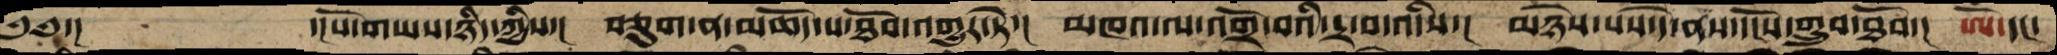༄༅་།             ་།པོ་གཡས་ཉིད་ཀྱིས་།   བཅུག་ན་མཆོད་པ་ཐོབ་འགྱུར་ཏེ་།  མཁའ་ལ་འགྲོ་བའི་དྲ་བ་འདིས་།  མཉེས་པས་དེ་ནས་དངོས་གྲུབ་ཐོབ་།  ཨོཾ་དང་
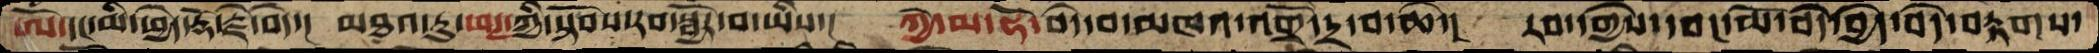ཨོཾ་དང་མི་ཕྱེད་རྡོ་རྗེ་བདེ་།  མཐའ་རུ་ཕཊ་ཀྱི་སྟོབས་རབ་སྦྱོར་བ་ཡིས་།  ཀྱེ་མ་ཧོ་བདེ་བ་མཁའ་འགྲོ་དྲ་བ་ཆེ་།  རབ་དགྱེས་དབང་མོ་བདེ་བྱེད་བདེ་བརྟགས་
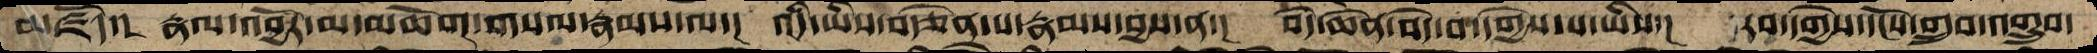མཛོད་།  རྣལ་འབྱོར་མ་མཆོག་གསལ་རྣམས་ལ་།  འདི་ཡིས་བརྩེན་པ་རྣམས་བྱས་ན་།  བདེ་ཆེན་བདེ་བ་དགྱེས་པ་ཡིས་།  རབ་དགྱེས་དངོས་གྲུབ་འགྲུབ་
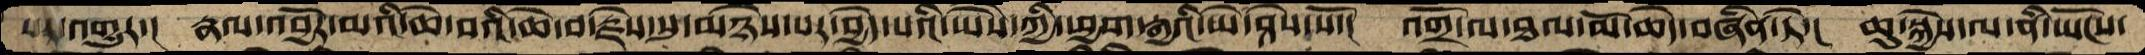པར་འགྱུར་།  རྣལ་འབྱོར་མའི་ཆེ་བའི་ཆེ་བ་རྗེས་སུ་མཉེས་པར་བྱེད་པའི་ཡཻས་ཀྱི་ཕྱག་རྒྱའི་ཡེ་ཤེས་སོ་།  འགྲོ་ལ་ཐལ་མོ་ཆེད་བཞིན་ཏེ་།  ཆུ་སྐྱེས་ལ་ནི་ཡོངས་
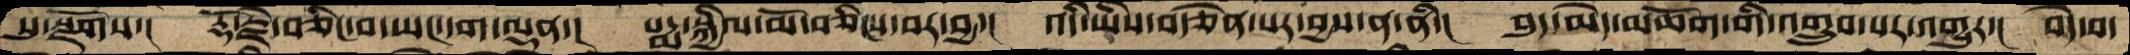སུ་སྫོགས་།  རྡོ་རྗེ་བཅིང་བ་ཡང་དག་ལྡན་།  པདྨ་སྐྱིལ་མོ་བཅིངས་བར་བྱ་།  འདི་ཡིས་བརྩེན་པར་བྱས་ན་ནི་།  བུད་མེད་མཆོག་གི་འགྲུབ་པར་འགྱུར་།  བདེ་བ་
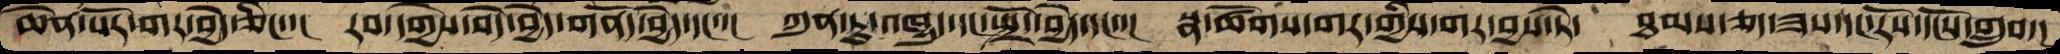ཆེན་པོར་གར་བྱེད་ཅིང་་།  རབ་དགྱེས་བདེ་བྱེད་གནོད་བྱེད་དང་་།  ཀུན་ཏུ་འཁྱུད་དང་སྤྲོད་བྱེད་དང་་།  སྣ་ཚོགས་གར་གྱིས་གར་བྱས་ཏེ་།  ཐམས་ཅད་ཟས་དང་རོས་དངོས་གྲུབ་།
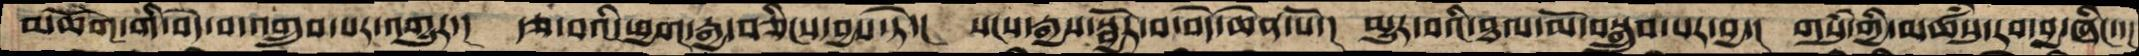མཆོག་གི་བདེ་བ་འགྲུབ་པར་འགྱུར་།  རྩ་བའི་ཕྱག་རྒྱ་བཅིངས་བྱས་ཏེ་།  སངས་རྒྱས་སྦྱོར་བ་བདེ་ཆེན་པོ་།  མྱུར་བའི་ཐལ་མོ་བསྒྲུབ་པར་བྱ་།  གསུཾ་གྱི་མཚཾསུ་རབ་བྱ་ཞིང་་།
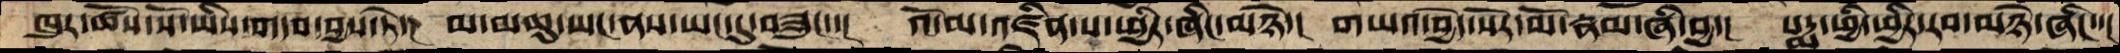ཁུར་ཚོས་སོ་ཡིས་གདབ་བྱས་ཏེ་།  མ་མཆུ་ཡང་ནས་ཡང་དུ་བཟུང་་།  འོ་མ་འཛིན་པ་ཕྱིར་ཞིང་མཉེ་།  གཡའ་བྱེད་སོར་མོ་རྣམ་ཞི་བྱ་།  པདྨ་ཕྱི་ཕྱིར་རབ་མཉེ་ཞིང་་།
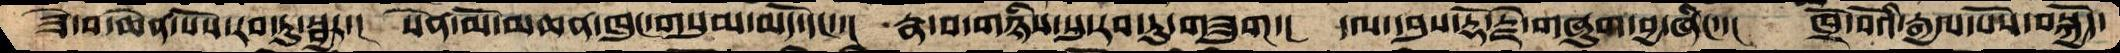ཟེ་བ་ཆེན་པོས་རབ་ཏུ་སྦྱར་།  སེན་མོ་མཆན་ཁུང་གསུམ་མོད་དང་་།  རྣ་བ་གཉིས་སུ་རབ་ཏུ་གཟུག་།   དལ་དབུས་རྡོ་རྗེ་གཞུག་བྱ་ཞིང་་།  ཁྲོ་བོ་རྒྱལ་པོས་བསྐྱོད་
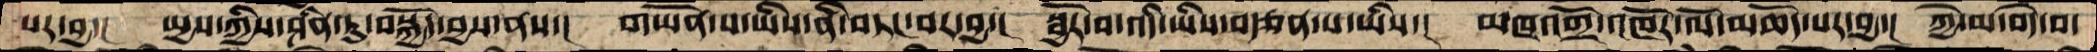པར་བྱ་།   ཡྱས་ཀྱིས་ཤིན་ཏུ་བསྐྱོད་བྱས་ནས་།  གཡོན་པ་ཡིས་ནི་བཏང་བར་བྱ་།  སྦྱོར་བ་འདི་ཡིས་བརྩན་པ་ཡིས་།  མཁའ་འགྲོ་འཁོར་ལོ་མཆོད་པར་བྱ་།  ཀྱེ་མ་བདེ་བ་
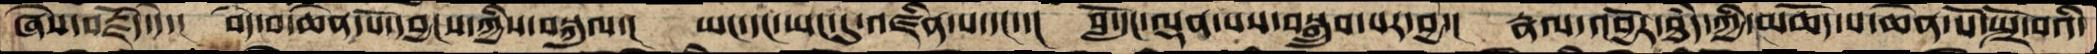ཞེས་བརྗོད་དེ་།   བདེ་བ་ཆེན་པོ་དབྱངས་ཀྱིས་བསྐུལ་།  ཡང་དང་ཡང་དུ་འཛིན་པ་དང་་།  བློ་དང་ལྡན་པས་བསྒྲུབ་པར་བྱ་།  རྣལ་འབྱོར་ཐཾད་ཀྱི་མཆོད་པ་ཆེན་པོ་སྤྲོ་བའི་
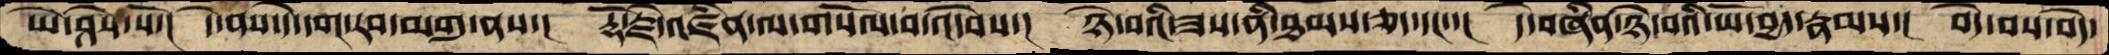ཡེ་ཤེས་སོ་།   དེ་ནས་དེ་དག་རབ་མགུ་ནས་།  རྡོ་རྗེ་འཛིན་ལ་གསོལ་བ་འདེབས་།  ཉེ་བའི་ཟས་ནི་ཐམས་ཅད་དང་་།   དེ་བཞིན་ཉེ་བའི་ཡོ་བྱད་རྣམས་།  བདེ་བས་བདེ་
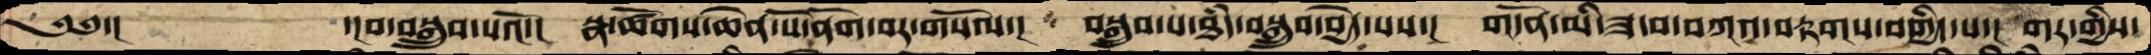༄༅་།           ་།བ་བསྒྲུབ་པའོ་།    སྣ་ཚོགས་ཆེན་པོ་ནོག་བར་གསོལ་།   བསྒྲུབ་པ་ཐཾད་བསྒྲུབ་བྱེད་པས་།  གདོན་མི་ཟ་བ་བཀའ་བརྟགས་བགྱིད་པ་།  གར་གྱིས་
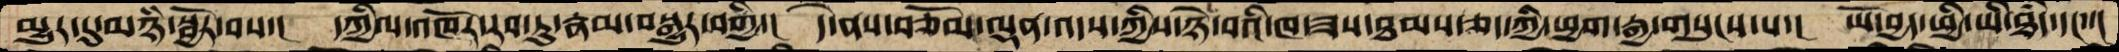མྱུར་དུ་མཉཾ་སྦྱོར་བས་།  དཀྱིལ་འཁོར་རབ་ཏུ་རྣམ་བསྒྱུར་བགྱི་།   དེ་ནས་བཅོམ་ལྡན་འདས་ཀྱིས་ཉེ་བའི་ཁ་ཟས་ཐམས་ཅད་ཀྱི་ཕྱག་རྒྱ་གསུངས་པ་།  ཡོ་བྱད་ཕྱི་ཡི་ཐཾད་དང་་།
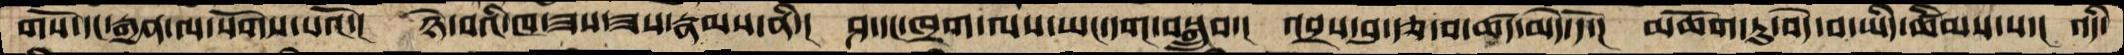གོས་དང་རྒྱན་ལ་སོགས་པའོ་།   ཉེ་བའི་ཁ་ཟས་ཟས་རྣམས་ནི་།   ཤ་དང་ཁྲག་ལས་ཡང་དག་བསྒྲུབ་།   འབྲས་བུ་རྩ་བ་ཚད་མེད་དེ་།  མཆོག་ཏུ་བདེ་བ་ཡིད་ཚིམས་པ་།  འདི་
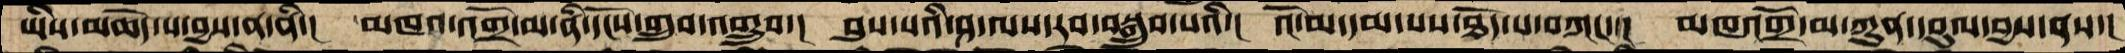ཡིས་མཆོད་པ་བྱས་ན་ནི་།   མཁའ་འགྲོ་མ་ནི་དངོས་གྲུབ་འགྲུབ་།  བུས་པའི་ཤ་ལས་རབ་བསྒྲུབ་པའི་།  འོ་མ་དམ་པས་ཐོད་པ་བཀང་་།  མཁའགྲོ་མ་ཀུན་དབུལ་བྱས་ནས་།
